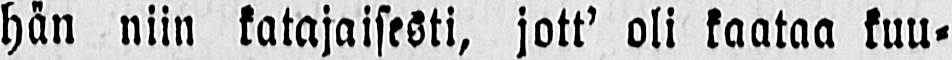hän niin katajaisesti, jott' oli kaataa kuu-
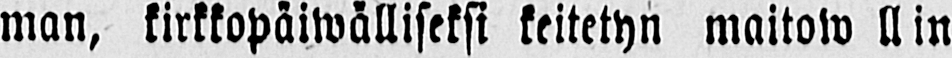man, kirkkopäiwälliseksi keitetyn maitow ll in
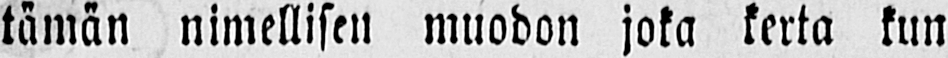tämän nimellisen muodon joka kerta kun
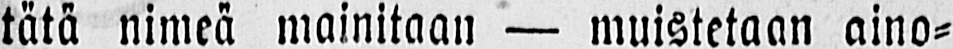tätä nimeä mainitaan — muistetaan aino-
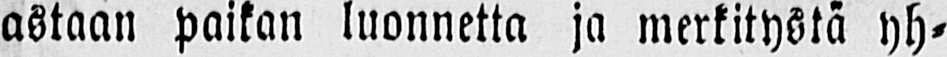astaan paikan luonnetta ja merkitystä yh-
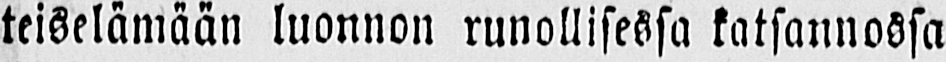teiselämään luonnon runollisessa katsannossa
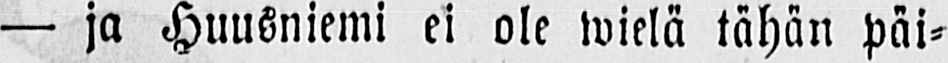— ja Huusniemi ei ole wielä tähän päi-
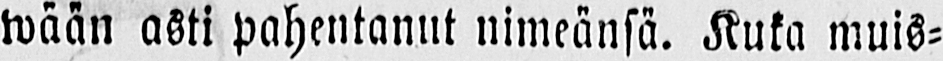wään asti pahentanut nimeänsä. Kuka muis-
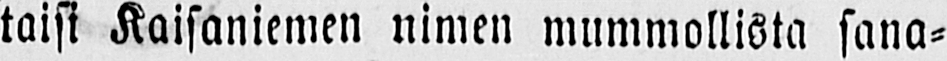taisi Kaisaniemen nimen mummollista sana-
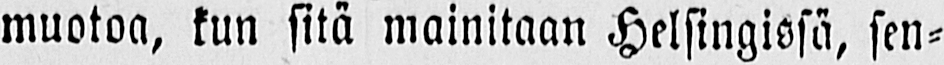muotoa, kun sitä mainitaan Helsingissä, sen-
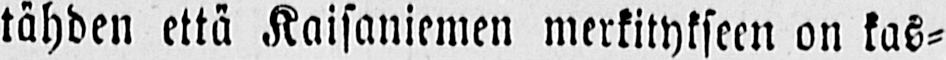tähden että Kaisaniemen merkitykseen on kas-
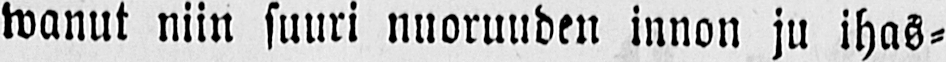wanut niin suuri nuoruuden innon ju ihas-
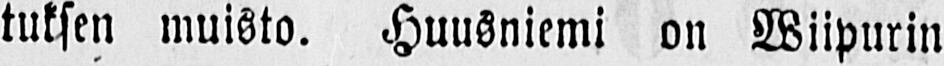tuksen muisto. Huusniemi on Wiipurin
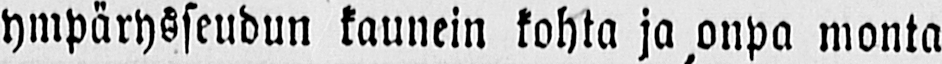ympärysseudun kaunein kohta ja onpa monta
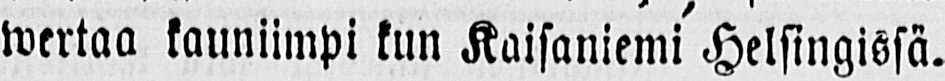wertaa kauniimpi kun Kaisaniemi Helsingissä.
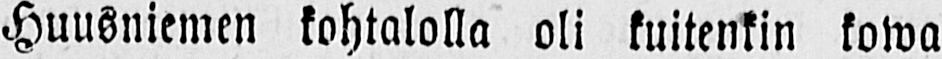Huusniemen kohtalolla oli kuitenkin kowa
